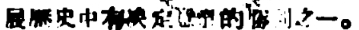展歷史中有決定意義的勝利之一。
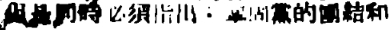但是同時必須指出：鞏固黨的團結和
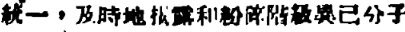統一，及時地揭露和粉碎階級異己分子
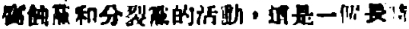腐蝕黨和分裂黨的活動，這是一個長時
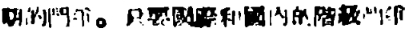期的鬥爭。只要國際和國內的階級鬥爭
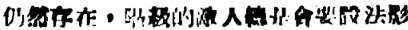仍然存在，階級的敵人總是會要設法影
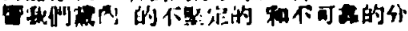響我們黨內 的不堅定的 和不可靠的分
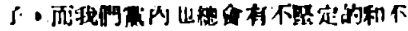子，而我們黨內也總會有不堅定的和不
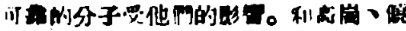可靠的分子受他們的影響。和高崗、饒
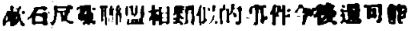漱石反黨聯盟相類似的時間今後還可能
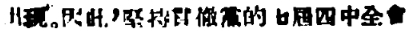出現。因此，堅持貫徹黨的七屆四中全會
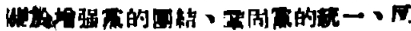關於增強黨的團結、鞏固黨的統一、反
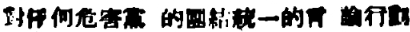對任何危害黨 的團結統一的言 論行動
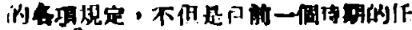的各項規定，不但是目前一個時期的任
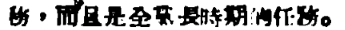務，而且是全黨長時期的任務。
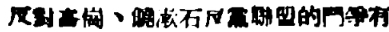反對高崗、饒漱石反黨聯盟的鬥爭有
